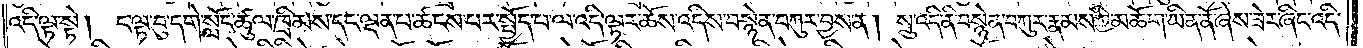འདི་ལྟ་སྟེ། ང་ལྟ་བུ་དགེ་སློང་ཚུལ་ཁྲིམས་དང་ལྡན་པ་ཚངས་པར་སྤྱོད་པ་ལ་འདི་ལྟར་ཆོས་འདིས་བསྙེན་བཀུར་བྱས་ན། སྲུ་འདི་ནི་བསྙེན་བཀུར་རྣམས་ཀྱི་མཆོག་ཡིན་ནོ་ཞེས་ཟེར་ཞིང་འདི་
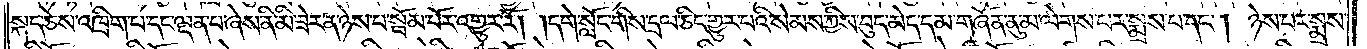སྐད་ཅེས་འཁྲིག་པ་དང་ལྡན་པ་ཞེས་ནི་མི་ཟེར་ན་ཉེས་པ་སྦོམ་པོར་འགྱུར་རོ། །དགེ་སློང་གིས་དྲལ་ཅིང་གྱུར་པའི་སེམས་ཀྱིས་བུད་མེད་དམ་གཞོན་ནུ་མ་ལེགས་པར་སྨྲས་པ་དང༌། ཉེས་པར་སྨྲས་
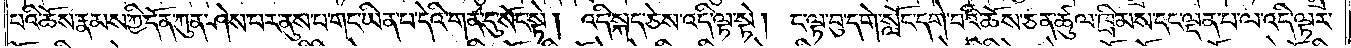པའི་ཆོས་རྣམས་ཀྱི་དོན་ཀུན་ཤེས་པར་ནུས་པ་གང་ཡིན་པ་དེའི་གན་དུ་སོང་སྟེ། འདི་སྐད་ཅེས་འདི་ལྟ་སྟེ། ང་ལྟ་བུ་དགེ་སློང་དགེ་བའི་ཆོས་ཅན་ཚུལ་ཁྲིམས་དང་ལྡན་པ་ལ་འདི་ལྟར་
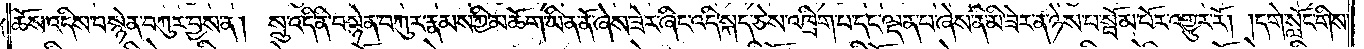ཆོས་འདིས་བསྙེན་བཀུར་བྱས་ན། སྲུ་འདི་ནི་བསྙེན་བཀུར་རྣམས་ཀྱི་མཆོག་ཡིན་ནོ་ཞེས་ཟེར་ཞིང་འདི་སྐད་ཅེས་འཁྲིག་པ་དང་ལྡན་པ་ཞེས་ནི་མི་ཟེར་ན་ཉེས་པ་སྦོམ་པོར་འགྱུར་རོ། །དགེ་སློང་གིས་
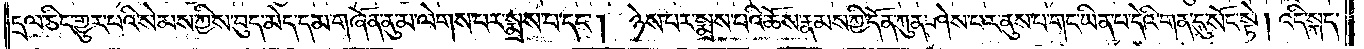དྲལ་ཅིང་གྱུར་པའི་སེམས་ཀྱིས་བུད་མེད་དམ་གཞོན་ནུ་མ་ལེགས་པར་སྨྲས་པ་དང༌།<gap>ཉེས་པར་སྨྲས་པའི་ཆོས་རྣམས་ཀྱི་དོན་ཀུན་ཤེས་པར་ནུས་པ་གང་ཡིན་པ་དེའི་གན་དུ་སོང་སྟེ། འདི་སྐད་
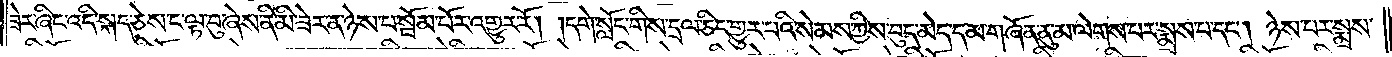ཟེར་ཞིང་འདི་སྐད་ཅེས་ང་ལྟ་བུ་ཞེས་ནི་མི་ཟེར་ན་ཉེས་པ་སྦོམ་པོར་འགྱུར་རོ། །དགེ་སློང་གིས་དྲལ་ཅིང་གྱུར་པའི་སེམས་ཀྱིས་བུད་མེད་དམ་གཞོན་ནུ་མ་ལེགས་པར་སྨྲས་པ་དང༌། ཉེས་པར་སྨྲས་
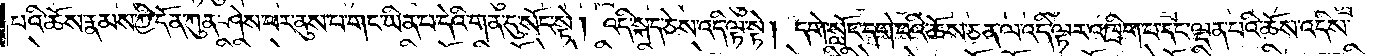པའི་ཆོས་རྣམས་ཀྱི་དོན་ཀུན་ཤེས་པར་ནུས་པ་གང་ཡིན་པ་དེའི་གན་དུ་སོང་སྟེ། འདི་སྐད་ཅེས་འདི་ལྟ་སྟེ། དགེ་སློང་དགེ་བའི་ཆོས་ཅན་ལ་འདི་ལྟར་འཁྲིག་པ་དང་ལྡན་པའི་ཆོས་འདིས་
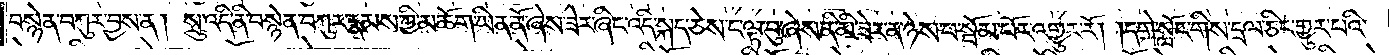བསྙེན་བཀུར་བྱས་ན། སྲུ་འདི་ནི་བསྙེན་བཀུར་རྣམས་ཀྱི་མཆོག་ཡིན་ནོ་ཞེས་ཟེར་ཞིང་འདི་སྐད་ཅེས་ང་ལྟ་བུ་ཞེས་ནི་མི་ཟེར་ན་ཉེས་པ་སྦོམ་པོར་འགྱུར་རོ། །དགེ་སློང་གིས་དྲལ་ཅིང་གྱུར་པའི་
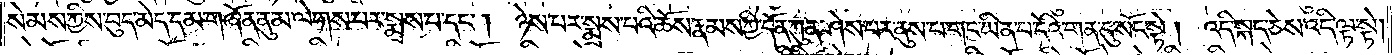སེམས་ཀྱིས་བུད་མེད་དམ་གཞོན་ནུ་མ་ལེགས་པར་སྨྲས་པ་དང༌། ཉེས་པར་སྨྲས་པའི་ཆོས་རྣམས་ཀྱི་དོན་ཀུན་ཤེས་པར་ནུས་པ་གང་ཡིན་པ་དེའི་གན་དུ་སོང་སྟེ། འདི་སྐད་ཅེས་འདི་ལྟ་སྟེ།
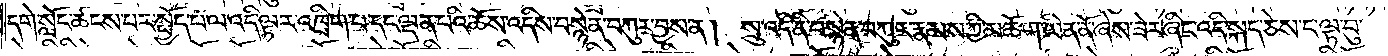དགེ་སློང་ཚངས་པར་སྤྱོད་པ་ལ་འདི་ལྟར་འཁྲིག་པ་དང་ལྡན་པའི་ཆོས་འདིས་བསྙེན་བཀུར་བྱས་ན། སྲུ་འདི་ནི་བསྙེན་བཀུར་རྣམས་ཀྱི་མཆོག་ཡིན་ནོ་ཞེས་ཟེར་ཞིང་འདི་སྐད་ཅེས་ང་ལྟ་བུ་
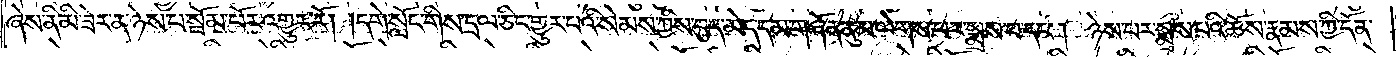ཞེས་ནི་མི་ཟེར་ན་ཉེས་པ་སྦོམ་པོར་འགྱུར་རོ། །དགེ་སློང་གིས་དྲལ་ཅིང་གྱུར་པའི་སེམས་ཀྱིས་བུད་མེད་དམ་གཞོན་ནུ་མ་ལེགས་པར་སྨྲས་པ་དང༌། ཉེས་པར་སྨྲས་པའི་ཆོས་རྣམས་ཀྱི་དོན་
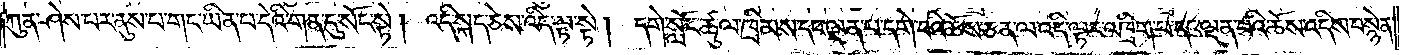ཀུན་ཤེས་པར་ནུས་པ་གང་ཡིན་པ་དེའི་གན་དུ་སོང་སྟེ། འདི་སྐད་ཅེས་འདི་ལྟ་སྟེ། དགེ་སློང་ཚུལ་ཁྲིམས་དང་ལྡན་པ་དགེ་བའི་ཆོས་ཅན་ལ་འདི་ལྟར་འཁྲིག་པ་དང་ལྡན་པའི་ཆོས་འདིས་བསྙེན་
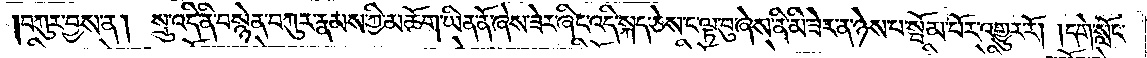།བཀུར་བྱས་ན། སྲུ་འདི་ནི་བསྙེན་བཀུར་རྣམས་ཀྱི་མཆོག་ཡིན་ནོ་ཞེས་ཟེར་ཞིང་འདི་སྐད་ཅེས་ང་ལྟ་བུ་ཞེས་ནི་མི་ཟེར་ན་ཉེས་པ་སྦོམ་པོར་འགྱུར་རོ། །དགེ་སློང་
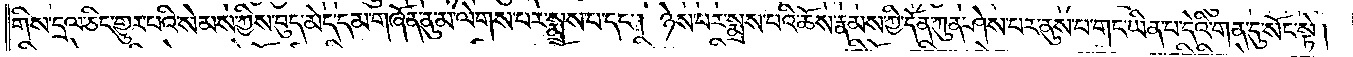གིས་དྲལ་ཅིང་གྱུར་པའི་སེམས་ཀྱིས་བུད་མེད་དམ་གཞོན་ནུ་མ་ལེགས་པར་སྨྲས་པ་དང༌། ཉེས་པར་སྨྲས་པའི་ཆོས་རྣམས་ཀྱི་དོན་ཀུན་ཤེས་པར་ནུས་པ་གང་ཡིན་པ་དེའི་གན་དུ་སོང་སྟེ།
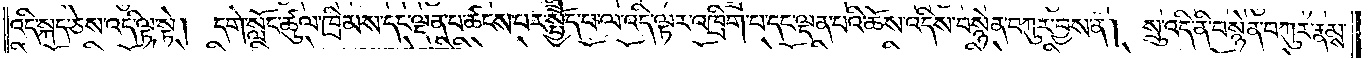འདི་སྐད་ཅེས་འདི་ལྟ་སྟེ། དགེ་སློང་ཚུལ་ཁྲིམས་དང་ལྡན་པ་ཚངས་པར་སྤྱོད་པ་ལ་འདི་ལྟར་འཁྲིག་པ་དང་ལྡན་པའི་ཆོས་འདིས་བསྙེན་བཀུར་བྱས་ན། སྲུ་འདི་ནི་བསྙེན་བཀུར་རྣམས་
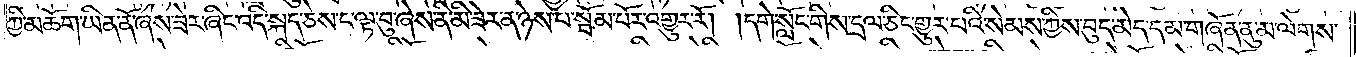ཀྱི་མཆོག་ཡིན་ནོ་ཞེས་ཟེར་ཞིང་འདི་སྐད་ཅེས་ང་ལྟ་བུ་ཞེས་ནི་མི་ཟེར་ན་ཉེས་པ་སྦོམ་པོར་འགྱུར་རོ། །དགེ་སློང་གིས་དྲལ་ཅིང་གྱུར་པའི་སེམས་ཀྱིས་བུད་མེད་དམ་གཞོན་ནུ་མ་ལེགས་
